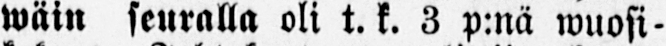wäin seuralla oli t. k. 3 p:nä wuosi-
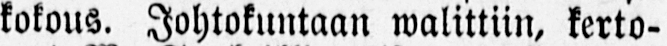kokous. Johtokuntaan walittiin, kerto-
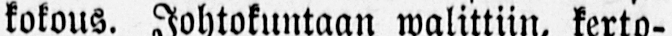wat W. S., kaikki entiset, paitsi agron.
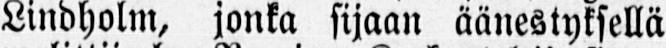Lindholm, jonka sijaan äänestyksellä
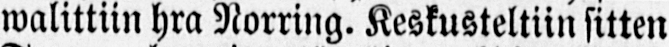walittiin hra Norring. Keskusteltiin sitten
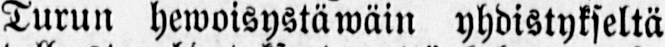Turun hewoisystäwäin yhdistykseltä
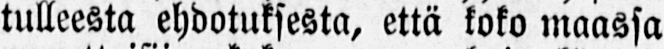tulleesta ehdotuksesta, että koko maassa
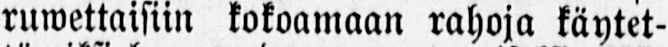ruwettaisiin kokoamaan rahoja käytet-
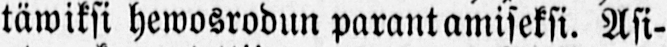täwiksi hewosrodun parantamiseksi. Asi-
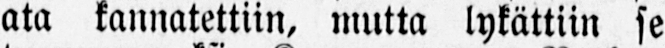ata kannatettiin, mutta lykättiin se
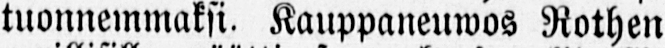tuonnemmaksi. Kauppaneuwos Rothen
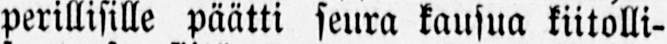perillisille päätti seura kausua kiitolli-
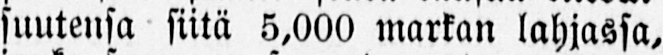suutensa siitä 5,000 markan lahjassa,
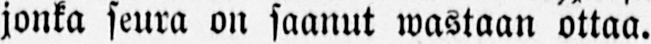jonka seura on saanut wastaan ottaa.
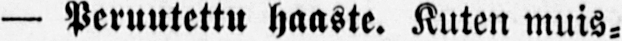— Peruutettu haaste. Kuten muis-
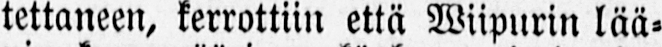tettaneen, kerrottiin että Wiipurin lää-
